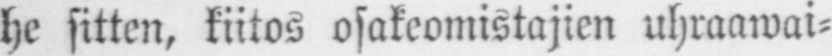he sitten, kiitos osakeomistajien uhraawai-
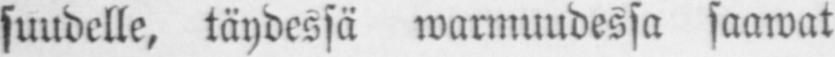suudelle, täydessä warmuudessa saawat
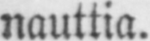nauttia.
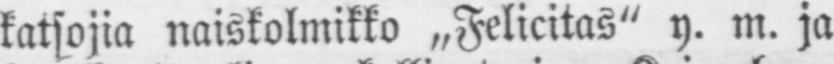katsojia naiskolmikko „Felicitas" y. m. ja
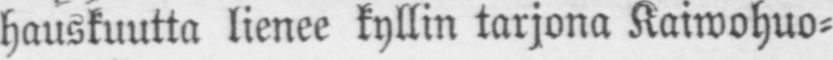hauskuutta lienee kyllin tarjona Kaiwohuo-
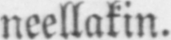neellakin.
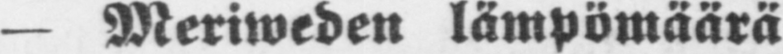— Meriweden lämpömäärä
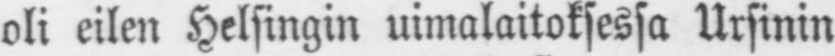oli eilen Helsingin uimalaitoksessa Ursinin
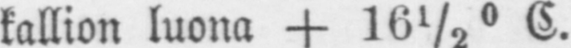kallion luona + 16½° C.
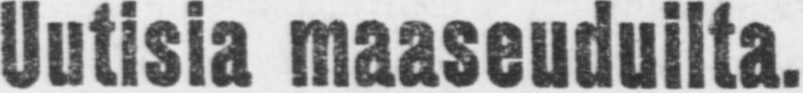Uutisia maaseuduilta.
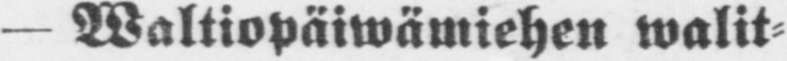— Waltiopäiwämiehen walit-
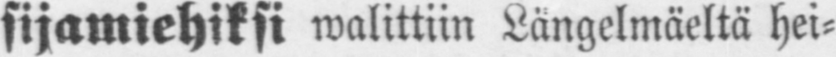sijamiehiksi walittiin Längelmäeltä hei-
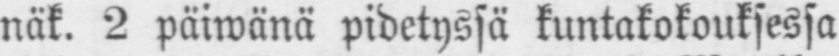näk. 2 päiwänä pidetyssä kuntakokouksessa
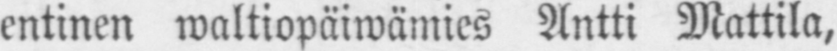entinen waltiopäiwämies Antti Mattila,
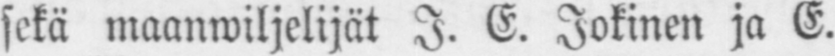sekä maanwiljelijät I. E. Jokinen ja E.
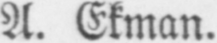A. Ekman.
